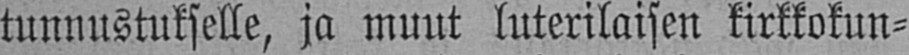tunnustukselle, ja muut luterilaisen kirkkokun-
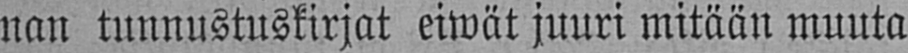nan tunnustuskirjat eiwät juuri mitään muuta
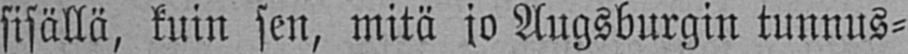sisällä, kuin sen, mitä jo Augsburgin tunnus-
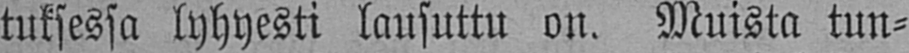tuksessa lyhyesti lausuttu on. Muista tun-
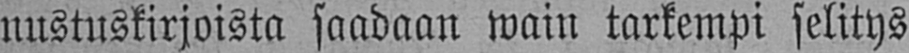nustuskirjoista saadaan wain tarkempi selitys
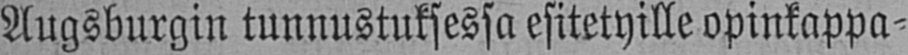Augsburgin tunnustuksessa esitetyille opinkappa-
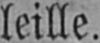leille.
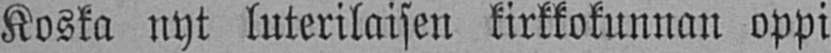Koska nyt luterilaisen kirkkokunnan oppi
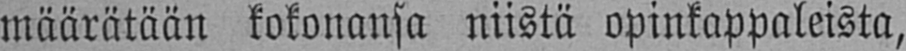määrätään kokonansa niistä opinkappaleista,
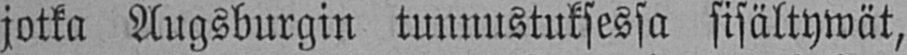jotka Augsburgin tunnustuksessa sisältywät,
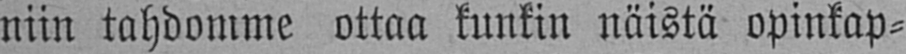niin tahdomme ottaa kunkin näistä opinkap-
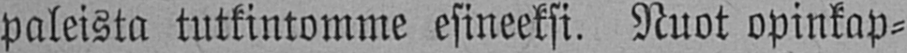paleista tutkintomme esineeksi. Nuot opinkap-
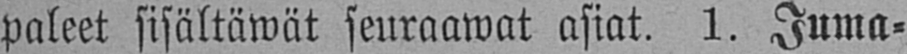paleet sisältäwät seuraawat asiat. 1. Juma-
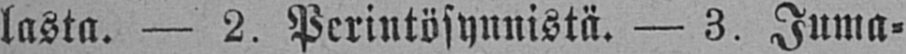lasta. — 2. Perintösynnistä. — 3. Juma-
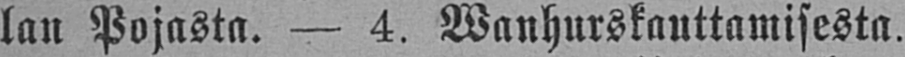lan Pojasta. — 4. Wanhurskauttamisesta.
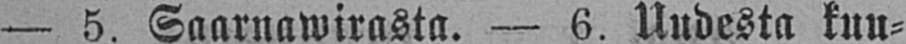— 5. Saarnawirasta. — 6. Uudesta kuu-
